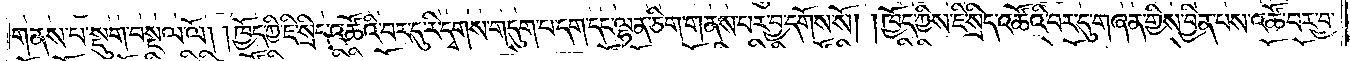གནས་པ་སྡུག་བསྔལ་ལོ། །ཁྱོད་ཀྱི་ཇི་སྲིད་འཚོའི་བར་དུ་རི་དྭགས་གདུག་པ་དག་དང་ལྷན་ཅིག་གནས་པར་བྱ་དགོས་སོ། །ཁྱོད་ཀྱིས་ཇི་སྲིད་འཚོའི་བར་དུ་གཞན་གྱིས་བྱིན་པས་འཚོ་བར་བྱ་
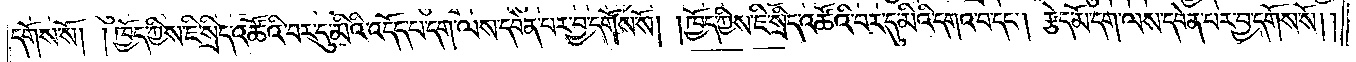དགོས་སོ། །ཁྱོད་ཀྱིས་ཇི་སྲིད་འཚོའི་བར་དུ་མིའི་འདོད་པ་དག་ལས་དབེན་པར་བྱ་དགོས་སོ། །ཁྱོད་ཀྱིས་ཇི་སྲིད་འཚོའི་བར་དུ་མིའི་དགའ་བ་དང༌། རྩེད་མོ་དག་ལས་དབེན་པར་བྱ་དགོས་སོ། །
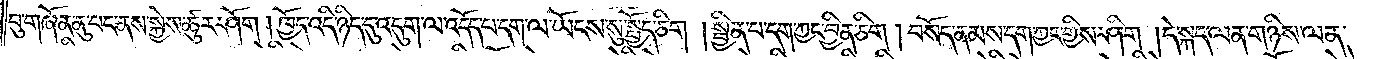བུ་གཞོན་ནུ་པང་ནས་སྐྱེས་ཚུར་ཤོག །ཁྱོད་འདི་ཉིད་དུ་འདུག་ལ་འདོད་པ་དག་ལ་ཡོངས་སུ་སྤྱོད་ཅིག །སྦྱིན་པ་དག་ཀྱང་བྱིན་ཅིག །བསོད་ནམས་དག་ཀྱང་གྱིས་ཤིག །དེ་སྐད་ལན་གཉིས་ལན་
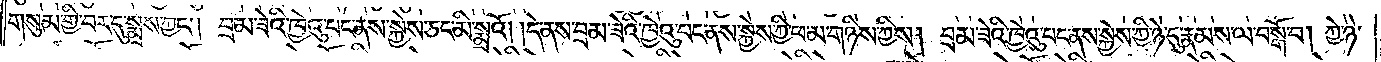གསུམ་གྱི་བར་དུ་སྨྲས་ཀྱང༌། བྲམ་ཟེའི་ཁྱེའུ་པང་ནས་སྐྱེས་ཅང་མི་སྨྲའོ། །དེ་ནས་བྲམ་ཟེའི་ཁྱེའུ་པང་ནས་སྐྱེས་ཀྱི་ཕ་མ་གཉིས་ཀྱིས། བྲམ་ཟེའི་ཁྱེའུ་པང་ནས་སྐྱེས་ཀྱི་ཉེ་དུ་རྣམས་ལ་བསྒོ་བ། ཀྱེ་ཉེ་
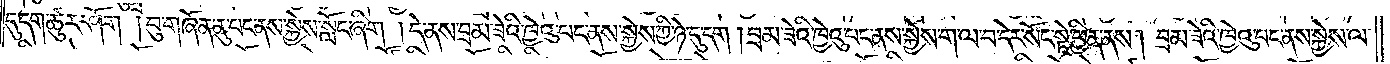དུ་དག་ཚུར་ཤོག །བུ་གཞོན་ནུ་པང་ནས་སྐྱེས་སློང་ཞིག །དེ་ནས་བྲམ་ཟེའི་ཁྱེའུ་པང་ནས་སྐྱེས་ཀྱི་ཉེ་དུ་དག །བྲམ་ཟེའི་ཁྱེའུ་པང་ནས་སྐྱེས་ག་ལ་བ་དེར་སོང་སྟེ་ཕྱིན་ནས། བྲམ་ཟེའི་ཁྱེའུ་པང་ནས་སྐྱེས་ལ་
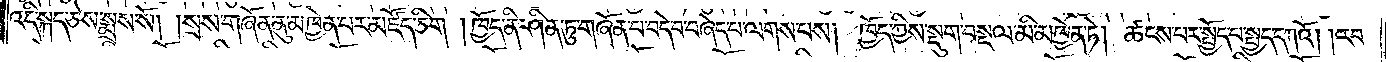འདི་སྐད་ཅེས་སྨྲས་སོ། །སྲས་གཞོན་ནུ་མཁྱེན་པར་མཛོད་ཅིག །ཁྱོད་ནི་ཤིན་ཏུ་གཞོན་པ་བདེ་བ་བཞེད་པ་ལགས་པས། ཁྱོད་ཀྱིས་སྡུག་བསྔལ་མི་མཁྱེན་ཏེ། ཚངས་པར་སྤྱོད་པ་སྤྱད་དཀའོ། །རབ་
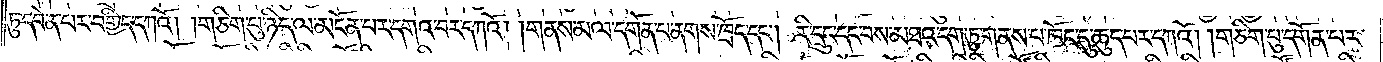ཏུ་དབེན་པར་བགྱིད་དཀའོ། །གཅིག་པུ་ཉིད་ལ་མངོན་པར་དགའ་བར་དཀའོ། །གནས་མལ་དགོན་པ་ནགས་ཁྲོད་དང༌། རི་དྲུང་དང་བས་མཐའ་དག་ཏུ་གནས་པ་ཁོང་དུ་ཆུད་པར་དཀའོ། །གཅིག་པུ་དགོན་པར་
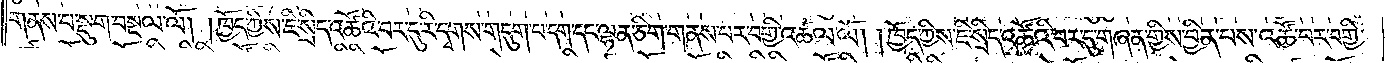གནས་པ་སྡུག་བསྔལ་ལོ། །ཁྱོད་ཀྱིས་ཇི་སྲིད་འཚོའི་བར་དུ་རི་དྭགས་གདུག་པ་དག་དང་ལྷན་ཅིག་གནས་པར་བགྱི་འཚལ་ལོ། ། ཁྱོད་ཀྱིས་ཇི་སྲིད་འཚོའི་བར་དུ་གཞན་གྱིས་བྱིན་པས་འཚོ་བར་བགྱི་
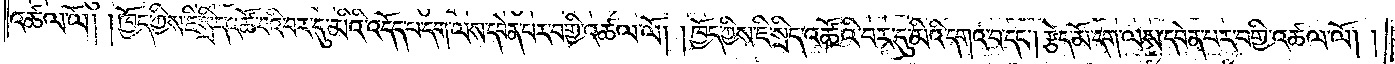འཚལ་ལོ། །ཁྱོད་ཀྱིས་ཇི་སྲིད་འཚོ་བའི་བར་དུ་མིའི་འདོད་པ་དག་ལས་དབེན་པར་བགྱི་འཚལ་ལོ། །ཁྱོད་ཀྱིས་ཇི་སྲིད་འཚོའི་བར་དུ་མིའི་དགའ་བ་དང༌། རྩེད་མོ་དག་ལས་དབེན་པར་བགྱི་འཚལ་ལོ༎
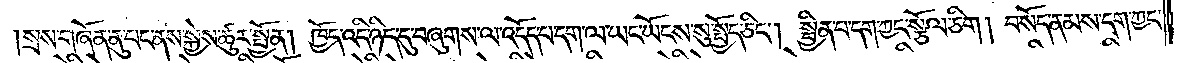སྲས་གཞོན་ནུ་པང་ནས་སྐྱེས་ཚུར་སྤྱོན། ཁྱོད་འདི་ཉིད་དུ་བཞུགས་ལ་འདོད་པ་དག་ལ་ཡང་ཡོངས་སུ་སྤྱོད་ཅིང༌། སྦྱིན་པ་དག་ཀྱང་སྩོལ་ཅིག། བསོད་ནམས་དག་ཀྱང་
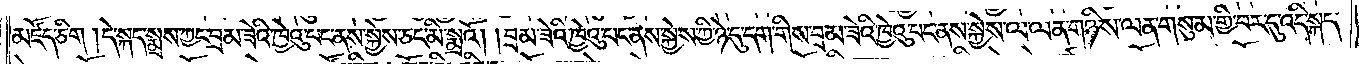མཛོད་ཅིག །དེ་སྐད་སྨྲས་ཀྱང་བྲམ་ཟེའི་ཁྱེའུ་པང་ནས་སྐྱེས་ཅང་མི་སྨྲའོ། །བྲམ་ཟེའི་ཁྱེའུ་པང་ནས་སྐྱེས་ཀྱི་ཉེ་དུ་དག་གིས་བྲམ་ཟེའི་ཁྱེའུ་པང་ནས་སྐྱེས་ལ་ལན་གཉིས་ལན་གསུམ་གྱི་བར་དུ་འདི་སྐད་
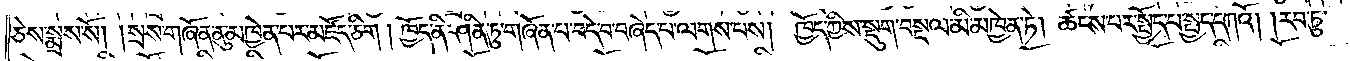ཅེས་སྨྲས་སོ། །སྲས་གཞོན་ནུ་མཁྱེན་པར་མཛོད་ཅིག །ཁྱོད་ནི་ཤིན་ཏུ་གཞོན་པ་བདེ་བ་བཞེད་པ་ལགས་པས། ཁྱོད་ཀྱིས་སྡུག་བསྔལ་མི་མཁྱེན་ཏེ། ཚངས་པར་སྤྱོད་པ་སྤྱད་དཀའོ། །རབ་ཏུ་
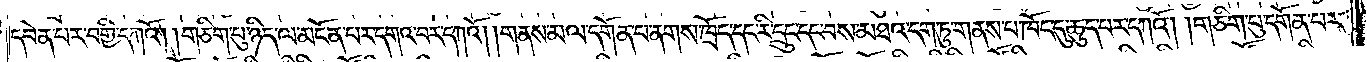དབེན་པར་བགྱི་དཀའོ། །གཅིག་པུ་ཉིད་ལ་མངོན་པར་དགའ་བར་དཀའོ། །གནས་མལ་དགོན་པ་ནགས་ཁྲོད་དང་རི་དྲུང་དང་བས་མཐའ་དག་ཏུ་གནས་པ་ཁོང་དུ་ཆུད་པར་དཀའོ། །གཅིག་པུ་དགོན་པར་
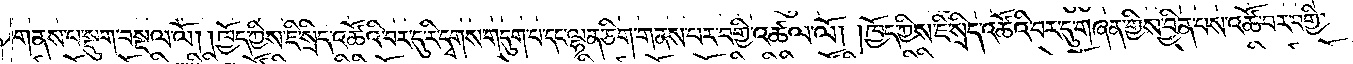གནས་པ་སྡུག་བསྔལ་ལོ། །ཁྱོད་ཀྱིས་ཇི་སྲིད་འཚོའི་བར་དུ་རི་དྭགས་གདུག་པ་དང་ལྷན་ཅིག་གནས་པར་བགྱི་འཚལ་ལོ། །ཁྱོད་ཀྱིས་ཇི་སྲིད་འཚོའི་བར་དུ་གཞན་གྱིས་བྱིན་པས་འཚོ་བར་བགྱི་
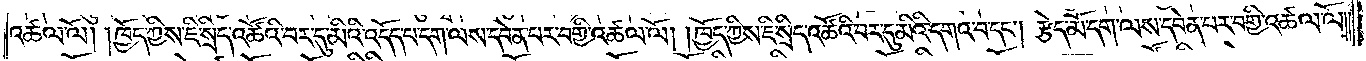འཚལ་ལོ། །ཁྱོད་ཀྱིས་ཇི་སྲིད་འཚོའི་བར་དུ་མིའི་འདོད་པ་དག་ལས་དབེན་པར་བགྱི་འཚལ་ལོ། །ཁྱོད་ཀྱིས་ཇི་སྲིད་འཚོའི་བར་དུ་མིའི་དགའ་བ་དང༌། རྩེད་མོ་དག་ལས་དབེན་པར་བགྱི་འཚལ་ལོ༎
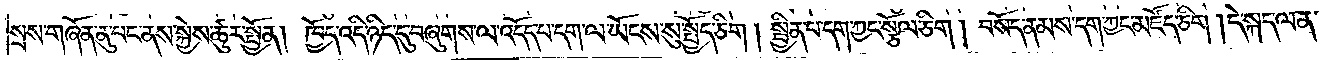སྲས་གཞོན་ནུ་པང་ནས་སྐྱེས་ཚུར་སྤྱོན། ཁྱོད་འདི་ཉིད་དུ་བཞུགས་ལ་འདོད་པ་དག་ལ་ཡོངས་སུ་སྤྱོད་ཅིག། སྦྱིན་པ་དག་ཀྱང་སྩོལ་ཅིག། བསོད་ནམས་དག་ཀྱང་མཛོད་ཅིག །དེ་སྐད་ལན་
